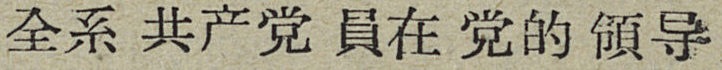全系共产党員在党的領导
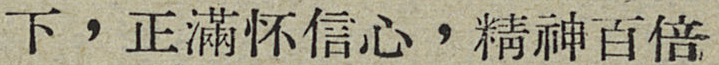下，正滿怀信心，精神百倍
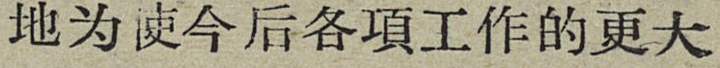地为使今后各項工作的更大
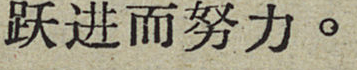跃进而努力。
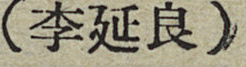（李延良）
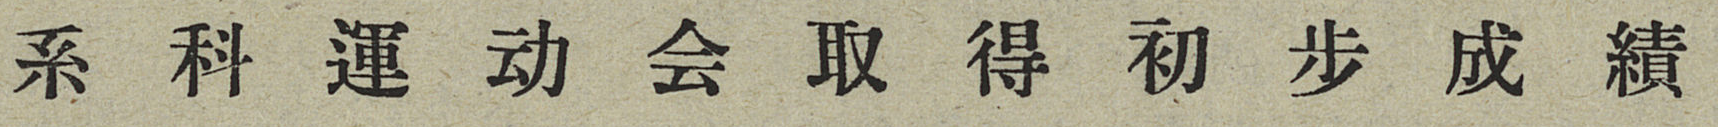系 科 運 动 会 取 得 初 步 成 績
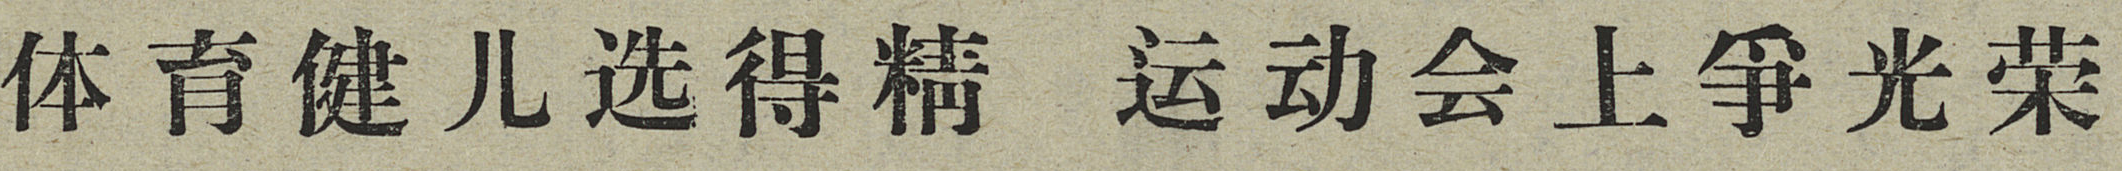体育健儿选得精 运动会上争光荣
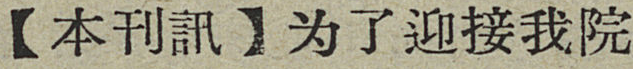【本刊訊】为了迎接我院
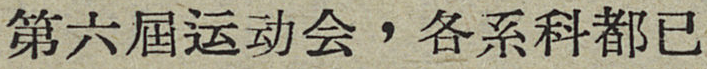第六屆运动会，各系科都已
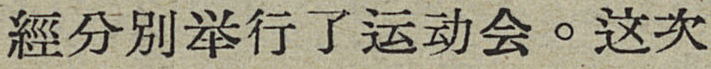經分别举行了运动会。这次
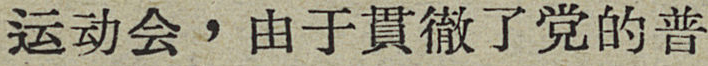运动会，由于貫徹了党的普
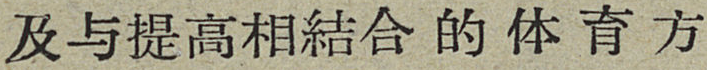及与提高相結合的体育方
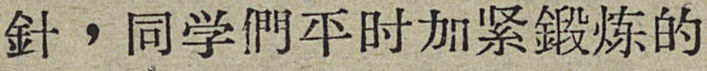針，同学們平时加紧鍛炼的
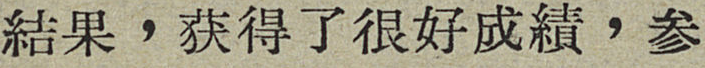結果，获得了很好成績，参
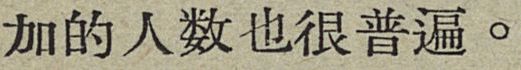加的人数也很普遍。
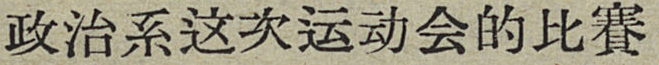政治系这次运动会的比賽
